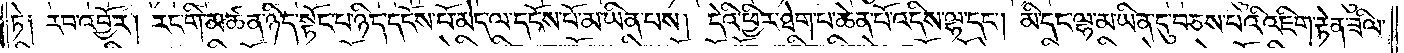ཏེ། རབ་འབྱོར། རང་གི་མཚན་ཉིད་སྟོང་པ་ཉིད་དངོས་པོ་མེད་ལ་དངོས་པོ་མ་ཡིན་པས། དེའི་ཕྱིར་ཐེག་པ་ཆེན་པོ་འདིས་ལྷ་དང༌། མི་དང་ལྷ་མ་ཡིན་དུ་བཅས་པའི་འཇིག་རྟེན་ཟིལ་
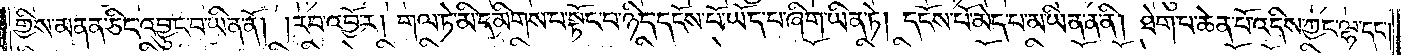གྱིས་མནན་ཅིང་འབྱུང་བ་ཡིན་ནོ། །རབ་འབྱོར། གལ་ཏེ་མི་དམིགས་པ་སྟོང་པ་ཉིད་དངོས་པོ་ཡོད་པ་ཞིག་ཡིན་ཏེ། དངོས་པོ་མེད་པ་མ་ཡིན་ན་ནི། ཐེག་པ་ཆེན་པོ་འདིས་ཀྱང་ལྷ་དང༌།
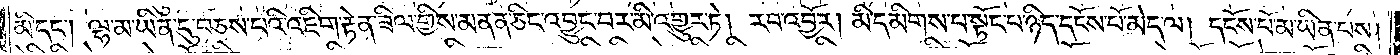མི་དང༌། ལྷ་མ་ཡིན་དུ་བཅས་པའི་འཇིག་རྟེན་ཟིལ་གྱིས་མནན་ཅིང་འབྱུང་བར་མི་འགྱུར་ཏེ། རབ་འབྱོར། མི་དམིགས་པ་སྟོང་པ་ཉིད་དངོས་པོ་མེད་ལ། དངོས་པོ་མ་ཡིན་པས།
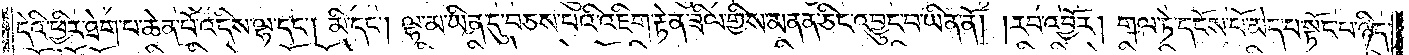དེའི་ཕྱིར་ཐེག་པ་ཆེན་པོ་འདིས་ལྷ་དང༌། མི་དང༌། ལྷ་མ་ཡིན་དུ་བཅས་པའི་འཇིག་རྟེན་ཟིལ་གྱིས་མནན་ཅིང་འབྱུང་བ་ཡིན་ནོ། །རབ་འབྱོར། གལ་ཏེ་དངོས་པོ་མེད་པ་སྟོང་པ་ཉིད་
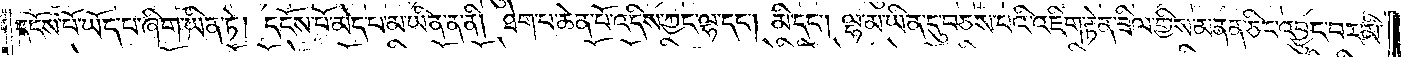དངོས་པོ་ཡོད་པ་ཞིག་ཡིན་ཏེ། དངོས་པོ་མེད་པ་མ་ཡིན་ན་ནི། ཐེག་པ་ཆེན་པོ་འདིས་ཀྱང་ལྷ་དང༌། མི་དང༌། ལྷ་མ་ཡིན་དུ་བཅས་པའི་འཇིག་རྟེན་ཟིལ་གྱིས་མནན་ཅིང་འབྱུང་བར་མི་
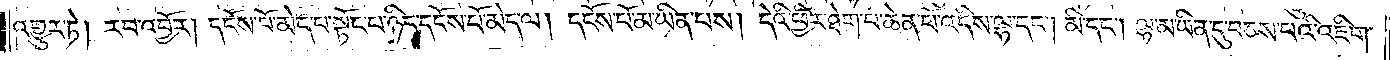འགྱུར་ཏེ། རབ་འབྱོར། དངོས་པོ་མེད་པ་སྟོང་པ་ཉིད་དངོས་པོ་མེད་ལ། དངོས་པོ་མ་ཡིན་པས། དེའི་ཕྱིར་ཐེག་པ་ཆེན་པོ་འདིས་ལྷ་དང༌། མི་དང༌། ལྷ་མ་ཡིན་དུ་བཅས་པའི་འཇིག་
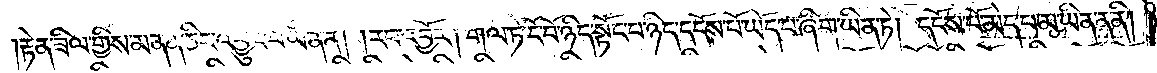རྟེན་ཟིལ་གྱིས་མནན་ཅིང་འབྱུང་བ་ཡིན་ནོ། །རབ་འབྱོར། གལ་ཏེ་ངོ་བོ་ཉིད་སྟོང་པ་ཉིད་དངོས་པོ་ཡོད་པ་ཞིག་ཡིན་ཏེ། དངོས་པོ་མེད་པ་མ་ཡིན་ན་ནི།
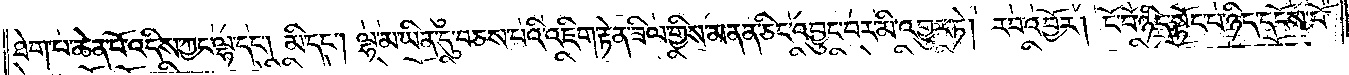ཐེག་པ་ཆེན་པོ་འདིས་ཀྱང་ལྷ་དང༌། མི་དང༌། ལྷ་མ་ཡིན་དུ་བཅས་པའི་འཇིག་རྟེན་ཟིལ་གྱིས་མནན་ཅིང་འབྱུང་བར་མི་འགྱུར་ཏེ། རབ་འབྱོར། ངོ་བོ་ཉིད་སྟོང་པ་ཉིད་དངོས་པོ་
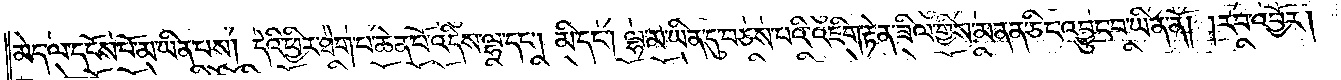མེད་ལ་དངོས་པོ་མ་ཡིན་པས། དེའི་ཕྱིར་ཐེག་པ་ཆེན་པོ་འདིས་ལྷ་དང༌། མི་དང༌། ལྷ་མ་ཡིན་དུ་བཅས་པའི་འཇིག་རྟེན་ཟིལ་གྱིས་མནན་ཅིང་འབྱུང་བ་ཡིན་ནོ། །རབ་འབྱོར།
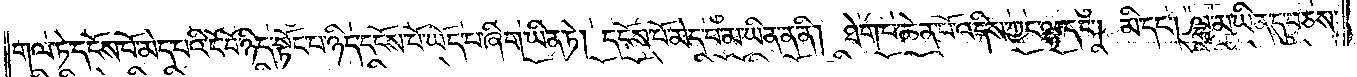གལ་ཏེ་དངོས་པོ་མེད་པའི་ངོ་བོ་ཉིད་སྟོང་པ་ཉིད་དངོས་པོ་ཡོད་པ་ཞིག་ཡིན་ཏེ། དངོས་པོ་མེད་པ་མ་ཡིན་ན་ནི། ཐེག་པ་ཆེན་པོ་འདིས་ཀྱང་ལྷ་དང༌། མི་དང༌། ལྷ་མ་ཡིན་དུ་བཅས་
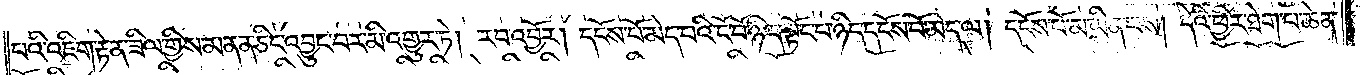པའི་འཇིག་རྟེན་ཟིལ་གྱིས་མནན་ཅིང་འབྱུང་བར་མི་འགྱུར་ཏེ། རབ་འབྱོར། དངོས་པོ་མེད་པའི་ངོ་བོ་ཉིད་སྟོང་པ་ཉིད་དངོས་པོ་མེད་ལ། དངོས་པོ་མ་ཡིན་པས། དེའི་ཕྱིར་ཐེག་པ་ཆེན་
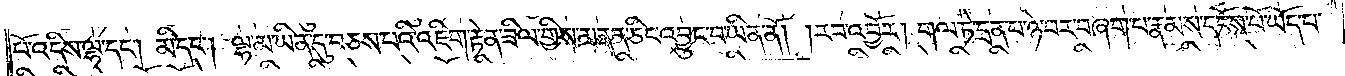པོ་འདིས་ལྷ་དང༌། མི་དང༌། ལྷ་མ་ཡིན་དུ་བཅས་པའི་འཇིག་རྟེན་ཟིལ་གྱིས་མནན་ཅིང་འབྱུང་བ་ཡིན་ནོ། །རབ་འབྱོར། གལ་ཏེ་དྲན་པ་ཉེ་བར་བཞག་པ་རྣམས་དངོས་པོ་ཡོད་པ་
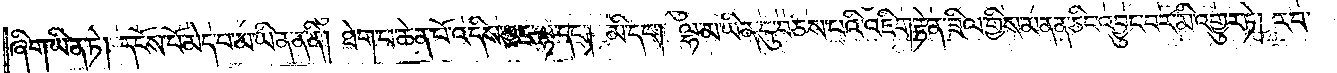ཞིག་ཡིན་ཏེ། དངོས་པོ་མེད་པ་མ་ཡིན་ན་ནི། ཐེག་པ་ཆེན་པོ་འདིས་ཀྱང་ལྷ་དང༌། མི་དང༌། ལྷ་མ་ཡིན་དུ་བཅས་པའི་འཇིག་རྟེན་ཟིལ་གྱིས་མནན་ཅིང་འབྱུང་བར་མི་འགྱུར་ཏེ། རབ་
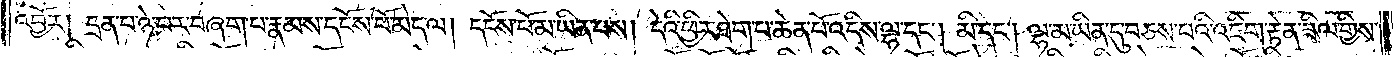འབྱོར། དྲན་པ་ཉེ་བར་བཞག་པ་རྣམས་དངོས་པོ་མེད་ལ། དངོས་པོ་མ་ཡིན་པས། དེའི་ཕྱིར་ཐེག་པ་ཆེན་པོ་འདིས་ལྷ་དང༌། མི་དང༌། ལྷ་མ་ཡིན་དུ་བཅས་པའི་འཇིག་རྟེན་ཟིལ་གྱིས་
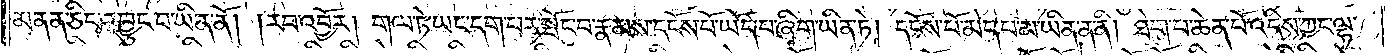མནན་ཅིང་འབྱུང་བ་ཡིན་ནོ། །རབ་འབྱོར། གལ་ཏེ་ཡང་དག་པར་སྤོང་བ་རྣམས་དངོས་པོ་ཡོད་པ་ཞིག་ཡིན་ཏེ། དངོས་པོ་མེད་པ་མ་ཡིན་ན་ནི། ཐེག་པ་ཆེན་པོ་འདིས་ཀྱང་ལྷ་
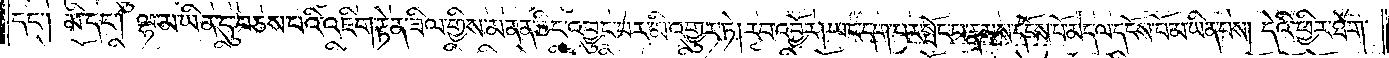དང༌། མི་དང༌། ལྷ་མ་ཡིན་དུ་བཅས་པའི་འཇིག་རྟེན་ཟིལ་གྱིས་མནན་ཅིང་འབྱུང་བར་མི་འགྱུར་ཏེ། རབ་འབྱོར། ཡང་དག་པར་སྤོང་བ་རྣམས་དངོས་པོ་མེད་ལ་དངོས་པོ་མ་ཡིན་པས། དེའི་ཕྱིར་ཐེག་
